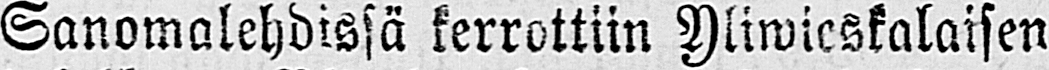Sanomalehdissä kerrottiin Yliwieskalaisen
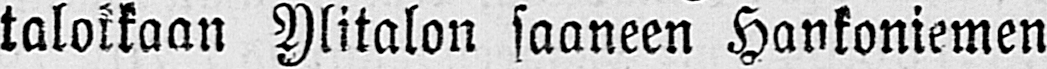talokkaan Ylitalon saaneen Hankoniemen
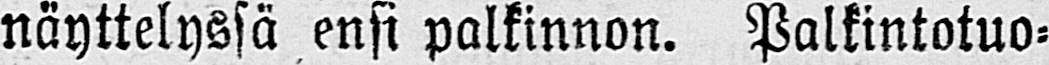näyttelyssä ensi palkinnon. Palkintotuo-
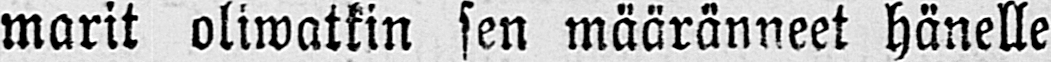marit oliwatkin sen määränneet hänelle
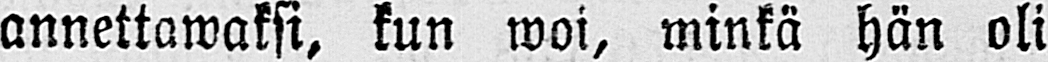annettawaksi, kun woi, minkä hän oli
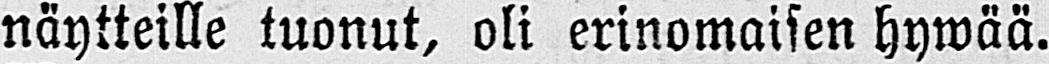näytteille tuonut, oli erinomaisen hywää.
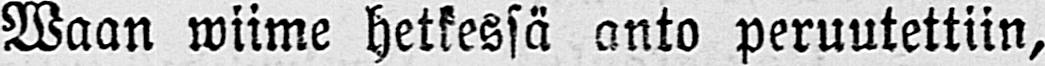Waan wiime hetkessä anto peruutettiin,
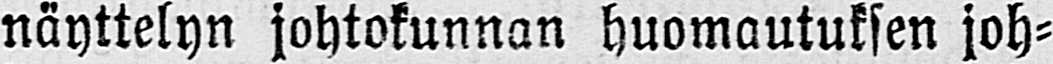näyttelyn johtokunnan huomautuksen joh-
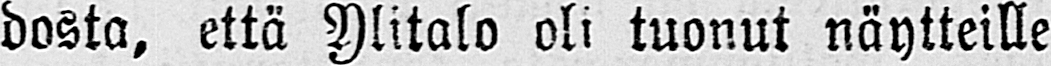dosta, että Ylitalo oli tuonut näytteille
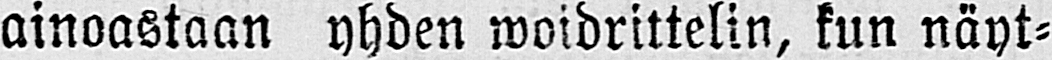ainoastaan yhden woidrittelin, kun näyt-
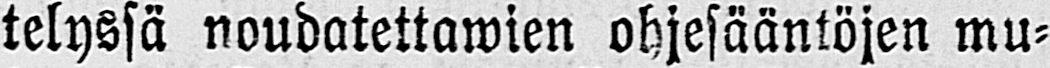telyssä noudatettawien ohjesääntöjen mu-
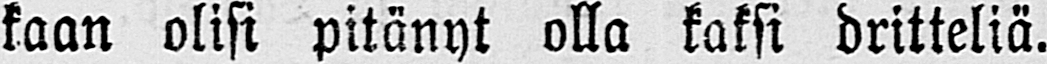kaan olisi pitänyt olla kaksi dritteliä.
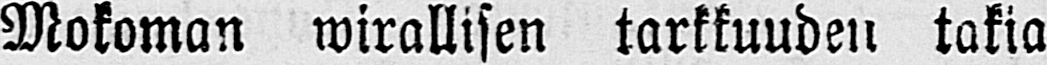Mokoman wirallisen tarkkuuden takia
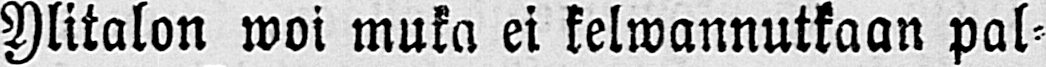Ylitalon woi muka ei kelwannutkaan pal-
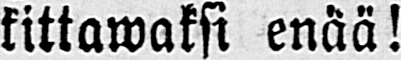kittawaksi enää!
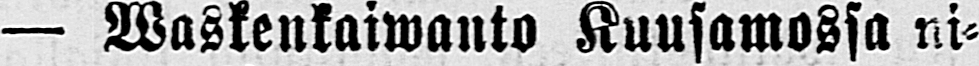— Waskenkaiwanto Kuusamossa ni-
